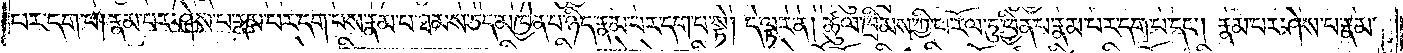པར་དག་པ། རྣམ་པར་ཤེས་པ་རྣམ་པར་དག་པས་རྣམ་པ་ཐམས་ཅད་མཁྱེན་པ་ཉིད་རྣམ་པར་དག་པ་སྟེ། དེ་ལྟར་ན། ཚུལ་ཁྲིམས་ཀྱི་ཕ་རོལ་ཏུ་ཕྱིན་པ་རྣམ་པར་དག་པ་དང༌། རྣམ་པར་ཤེས་པ་རྣམ་
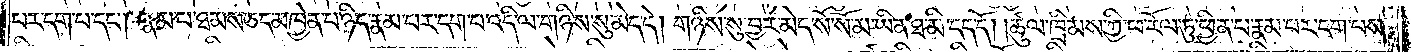པར་དག་པ་དང༌། རྣམ་པ་ཐམས་ཅད་མཁྱེན་པ་ཉིད་རྣམ་པར་དག་པ་འདི་ལ་གཉིས་སུ་མེད་དེ། གཉིས་སུ་བྱར་མེད་སོ་སོ་མ་ཡིན་ཐ་མི་དད་དོ། །ཚུལ་ཁྲིམས་ཀྱི་ཕ་རོལ་ཏུ་ཕྱིན་པ་རྣམ་པར་དག་པས་
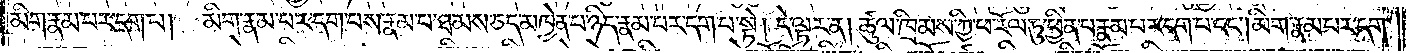མིག་རྣམ་པར་དག་པ། མིག་རྣམ་པར་དག་པས་རྣམ་པ་ཐམས་ཅད་མཁྱེན་པ་ཉིད་རྣམ་པར་དག་པ་སྟེ། དེ་ལྟར་ན་ཚུལ་ཁྲིམས་ཀྱི་ཕ་རོལ་ཏུ་ཕྱིན་པ་རྣམ་པར་དག་པ་དང༌། མིག་རྣམ་པར་དག་
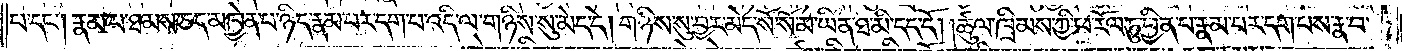པ་དང༌། རྣམ་པར་ཐམས་ཅད་མཁྱེན་པ་ཉིད་རྣམ་པར་དག་པ་འདི་ལ་གཉིས་སུ་མེད་དེ། གཉིས་སུ་བྱར་མེད་སོ་སོ་མ་ཡིན་ཐ་མི་དད་དོ། །ཚུལ་ཁྲིམས་ཀྱི་ཕ་རོལ་ཏུ་ཕྱིན་པ་རྣམ་པར་དག་པས་རྣ་བ་
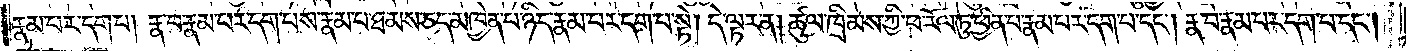རྣམ་པར་དག་པ། རྣ་བ་རྣམ་པར་དག་པས་རྣམ་པ་ཐམས་ཅད་མཁྱེན་པ་ཉིད་རྣམ་པར་དག་པ་སྟེ། དེ་ལྟར་ན། ཚུལ་ཁྲིམས་ཀྱི་ཕ་རོལ་ཏུ་ཕྱིན་པ་རྣམ་པར་དག་པ་དང༌། རྣ་བ་རྣམ་པར་དག་པ་དང༌།
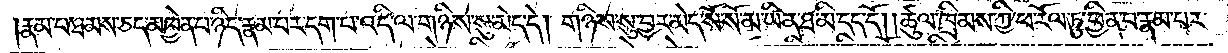རྣམ་པ་ཐམས་ཅད་མཁྱེན་པ་ཉིད་རྣམ་པར་དག་པ་འདི་ལ་གཉིས་སུ་མེད་དེ། གཉིས་སུ་བྱར་མེད་སོ་སོ་མ་ཡིན་ཐ་མི་དད་དོ། །ཚུལ་ཁྲིམས་ཀྱི་ཕ་རོལ་ཏུ་ཕྱིན་པ་རྣམ་པར་
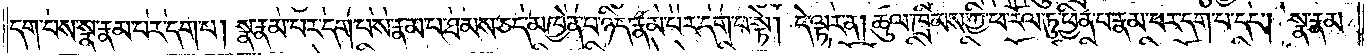དག་པས་སྣ་རྣམ་པར་དག་པ། སྣ་རྣམ་པར་དག་པས་རྣམ་པ་ཐམས་ཅད་མཁྱེན་པ་ཉིད་རྣམ་པར་དག་པ་སྟེ། དེ་ལྟར་ན། ཚུལ་ཁྲིམས་ཀྱི་ཕ་རོལ་ཏུ་ཕྱིན་པ་རྣམ་པར་དག་པ་དང༌། སྣ་རྣམ་
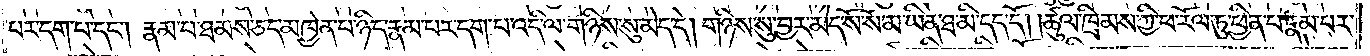པར་དག་པ་དང༌། རྣམ་པ་ཐམས་ཅད་མཁྱེན་པ་ཉིད་རྣམ་པར་དག་པ་འདི་ལ་གཉིས་སུ་མེད་དེ། གཉིས་སུ་བྱར་མེད་སོ་སོ་མ་ཡིན་ཐ་མི་དད་དོ། །ཚུལ་ཁྲིམས་ཀྱི་ཕ་རོལ་ཏུ་ཕྱིན་པ་རྣམ་པར་
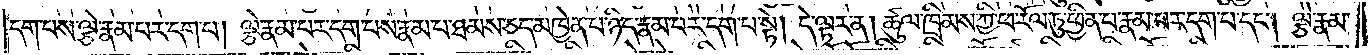དག་པས་ལྕེ་རྣམ་པར་དག་པ། ལྕེ་རྣམ་པར་དག་པས་རྣམ་པ་ཐམས་ཅད་མཁྱེན་པ་ཉིད་རྣམ་པར་དག་པ་སྟེ། དེ་ལྟར་ན། ཚུལ་ཁྲིམས་ཀྱི་ཕ་རོལ་ཏུ་ཕྱིན་པ་རྣམ་པར་དག་པ་དང༌། ལྕེ་རྣམ་
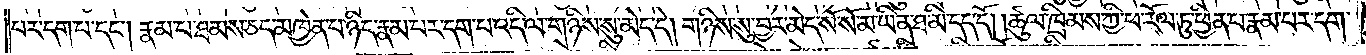པར་དག་པ་དང༌། རྣམ་པ་ཐམས་ཅད་མཁྱེན་པ་ཉིད་རྣམ་པར་དག་པ་འདི་ལ་གཉིས་སུ་མེད་དེ། གཉིས་སུ་བྱར་མེད་སོ་སོ་མ་ཡིན་ཐ་མི་དད་དོ། །ཚུལ་ཁྲིམས་ཀྱི་ཕ་རོལ་ཏུ་ཕྱིན་པ་རྣམ་པར་དག་
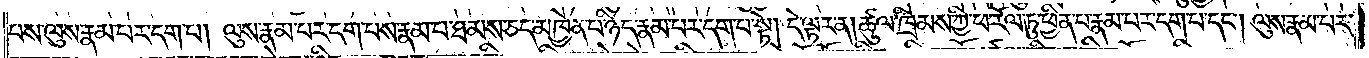པས་ལུས་རྣམ་པར་དག་པ། ལུས་རྣམ་པར་དག་པས་རྣམ་པ་ཐམས་ཅད་མཁྱེན་པ་ཉིད་རྣམ་པར་དག་པ་སྟེ། དེ་ལྟར་ན། ཚུལ་ཁྲིམས་ཀྱི་ཕ་རོལ་ཏུ་ཕྱིན་པ་རྣམ་པར་དག་པ་དང༌། ལུས་རྣམ་པར་
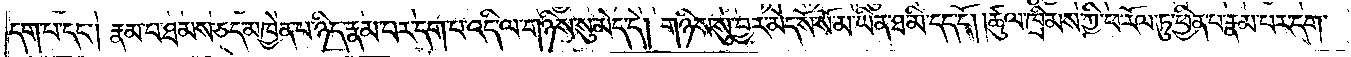དག་པ་དང་། རྣམ་པ་ཐམས་ཅད་མཁྱེན་པ་ཉིད་རྣམ་པར་དག་པ་འདི་ལ་གཉིས་སུ་མེད་དེ། གཉིས་སུ་བྱར་མེད་སོ་སོ་མ་ཡིན་ཐ་མི་དད་དོ། །ཚུལ་ཁྲིམས་ཀྱི་ཕ་རོལ་ཏུ་ཕྱིན་པ་རྣམ་པར་དག་
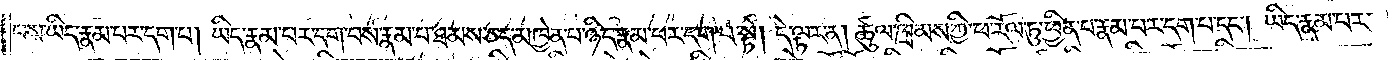པས་ཡིད་རྣམ་པར་དག་པ། ཡིད་རྣམ་པར་དག་པས་རྣམ་པ་ཐམས་ཅད་མཁྱེན་པ་ཉིད་རྣམ་པར་དག་པ་སྟེ། དེ་ལྟར་ན། ཚུལ་ཁྲིམས་ཀྱི་ཕ་རོལ་ཏུ་ཕྱིན་པ་རྣམ་པར་དག་པ་དང༌། ཡིད་རྣམ་པར་
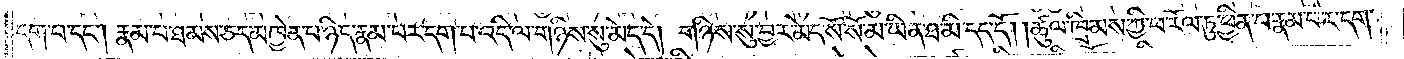དག་པ་དང༌། རྣམ་པ་ཐམས་ཅད་མཁྱེན་པ་ཉིད་རྣམ་པར་དག་པ་འདི་ལ་གཉིས་སུ་མེད་དེ། གཉིས་སུ་བྱར་མེད་སོ་སོ་མ་ཡིན་ཐ་མི་དད་དོ། །ཚུལ་ཁྲིམས་ཀྱི་ཕ་རོལ་ཏུ་ཕྱིན་པ་རྣམ་པར་དག་
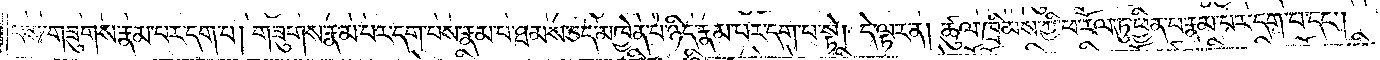པས་གཟུགས་རྣམ་པར་དག་པ། གཟུགས་རྣམ་པར་དག་པས་རྣམ་པ་ཐམས་ཅད་མཁྱེན་པ་ཉིད་རྣམ་པར་དག་པ་སྟེ། དེ་ལྟར་ན། ཚུལ་ཁྲིམས་ཀྱི་ཕ་རོལ་ཏུ་ཕྱིན་པ་རྣམ་པར་དག་པ་དང༌།
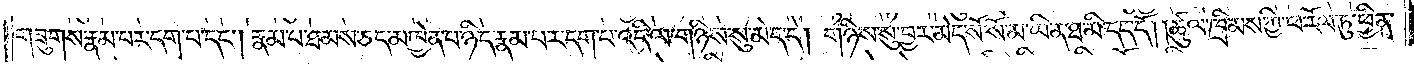གཟུགས་རྣམ་པར་དག་པ་དང༌། རྣམ་པ་ཐམས་ཅད་མཁྱེན་པ་ཉིད་རྣམ་པར་དག་པ་འདི་ལ་གཉིས་སུ་མེད་དེ། གཉིས་སུ་བྱར་མེད་སོ་སོ་མ་ཡིན་ཐ་མི་དད་དོ། །ཚུལ་ཁྲིམས་ཀྱི་ཕ་རོལ་ཏུ་ཕྱིན་
